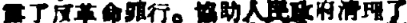露了反革命罪行。協助人民政府清理了
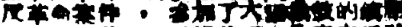反革命案件 ，參加了大張旗鼓的鎮壓
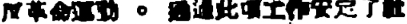反革命運動 。通過此項工作安定了社
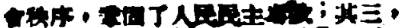會秩序，鞏固了人民民主戰爭；其三
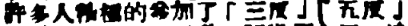許多人積極的參加了「三反」「五反」
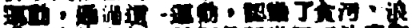運動，通過這一運動，認識了貪污、浪
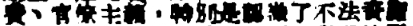費、官僚主義，特別使認識了不法資產
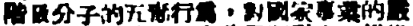階級分子的五毒行爲，對國家事業的嚴
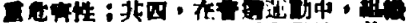重危害性；其四，在普選運動中，組織
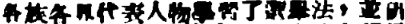各族各界代表人物學習了選舉法，並研
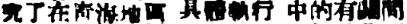究了在靑海地區 具體執行 中的有關問
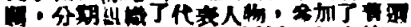題，分期組織了代表人物，參加了普選
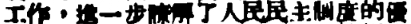工作，進一步瞭解了人民民主制度的優
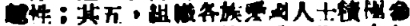越性；其五，組織各族愛國人士積極參
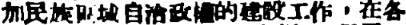加民族區域自治政權的建設工作，在各
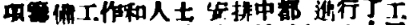項籌備工作和人士 安排中都 進行了工
